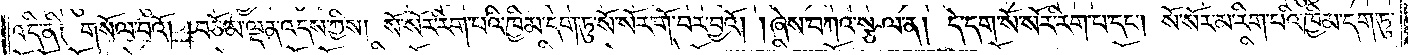འདི་ནི༑ གསོལ་བའོ། །བཅོམ་ལྡན་འདས་ཀྱིས། སོ་སོར་རིག་པའི་ཁྱིམ་དག་ཏུ་སོ་སོར་གོ་བར་བྱའོ། །ཞེས་བཀའ་སྩལ་ན། དེ་དག་སོ་སོར་རིག་པ་དང༌། སོ་སོར་མ་རིག་པའི་ཁྱིམ་དག་ཏུ་
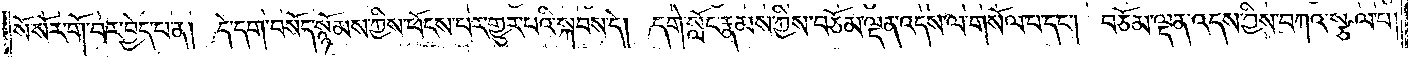སོ་སོར་གོ་བར་བྱེད་པ་ན། དེ་དག་བསོད་སྙོམས་ཀྱིས་ཕོངས་པར་གྱུར་པའི་སྐབས་དེ། དགེ་སློང་རྣམས་ཀྱིས་བཅོམ་ལྡན་འདས་ལ་གསོལ་བ་དང༌། བཅོམ་ལྡན་འདས་ཀྱིས་བཀའ་སྩལ་པ།
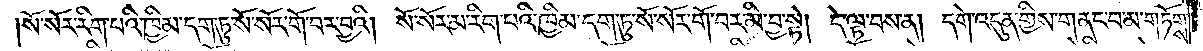སོ་སོར་རིག་པའི་ཁྱིམ་དག་ཏུ་སོ་སོར་གོ་བར་བྱའི། སོ་སོར་མ་རིག་པའི་ཁྱིམ་དག་ཏུ་སོ་སོར་གོ་བར་མི་བྱ་སྟེ། དེ་ལྟ་བས་ན། དགེ་འདུན་གྱིས་གནང་བ་མ་གཏོགས་
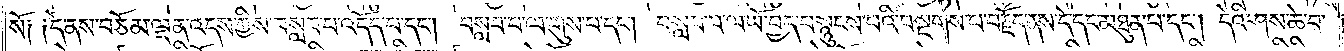སོ༑ ༑དེ་ནས་བཅོམ་ལྡན་འདས་ཀྱིས་བསླབ་པ་འདོད་པ་དང༌། བསླབ་པ་ལ་གུས་པ་དང༌། བསླབ་པ་ལ་ཡོ་བྱད་བསྙུངས་པའི་བསྔགས་པ་བརྗོད་ནས་དེ་དང་མཐུན་པ་དང༌། དེའི་ཤས་ཆེ་བ་
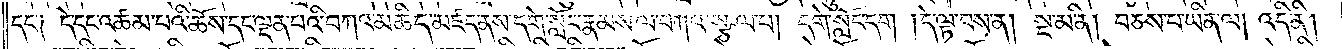དང་༑ དེ་དང་འཚམ་པའི་ཆོས་དང་ལྡན་པའི་བཀའ་མཆིད་མཛད་ནས་དགེ་སློང་རྣམས་ལ་བཀའ་སྩལ་པ། དགེ་སློང་དག །དེ་ལྟ་བས་ན། སྔ་མ་ནི། བཅས་པ་ཡིན་ལ། འདི་ནི།
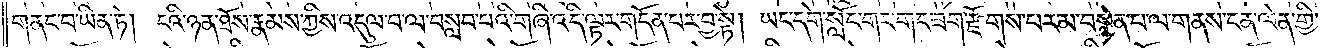གནང་བ་ཡིན་ཏེ། ངའི་ཉན་ཐོས་རྣམས་ཀྱིས་འདུལ་བ་ལ་བསླབ་པའི་གཞི་འདི་ལྟར་གདོན་པར་བྱ་སྟེ། ཡང་དགེ་སློང་གང་གང་ཟག་རྫོགས་པར་མ་བསྙེན་པ་ལ་གནས་ངན་ལེན་གྱི་
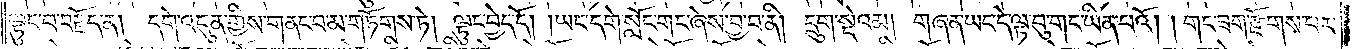ལྟུང་བ་བརྗོད་ན། དགེ་འདུན་གྱིས་གནང་བ་མ་གཏོགས་ཏེ། ལྟུང་བྱེད་དོ། །ཡང་དགེ་སློང་གང་ཞེས་བྱ་བ་ནི། དྲུག་སྡེའམ། གཞན་ཡང་དེ་ལྟ་བུ་གང་ཡིན་པའོ། །གང་ཟག་རྫོགས་པར་
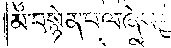མ་བསྙེན་པ་ལ་ཞེས་བྱ་
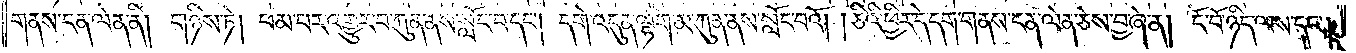གནས་ངན་ལེན་ནི། གཉིས་ཏེ། ཕམ་པར་འགྱུར་བ་ཀུན་ནས་སློང་བ་དང༌། དགེ་འདུན་ལྷག་མ་ཀུན་ནས་སློང་བའོ། །ཅིའི་ཕྱིར་དེ་དག་གནས་ངན་ལེན་ཅེས་བྱ་ཞེ་ན། ངོ་བོ་ཉིད་ལས་དང༌།
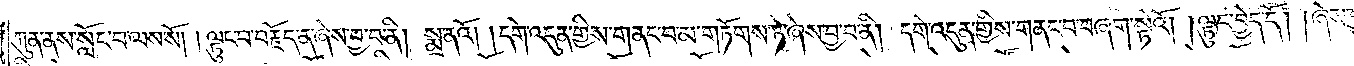ཀུན་ནས་སློང་བ་ལས་སོ། །ལྟུང་བ་བརྗོད་ན་ཞེས་བྱ་བ་ནི། སྨྲ་ནའོ། །དགེ་འདུན་གྱིས་གནང་བ་མ་གཏོགས་ཏེ་ཞེས་བྱ་བ་ནི། དགེ་འདུན་གྱིས་གནང་བ་བཞག་སྟེའོ། །ལྟུང་བྱེད་དོ། །ཞེས་བྱ་བ་
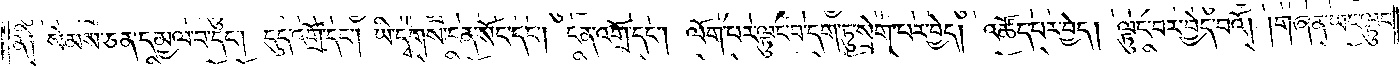ནི༑ སེམས་ཅན་དམྱལ་བ་དང༌། དུད་འགྲོ་དང༌། ཡི་དྭགས་ངན་སོང་དང༌། ངན་འགྲོ་དང༌། ལོག་པར་ལྟུང་བ་དག་ཏུ་སྲེག་པར་བྱེད། འཚོད་པར་བྱེད། ལྟུང་བར་བྱེད་པའོ། །གཞན་ཡང་ལྟུང་
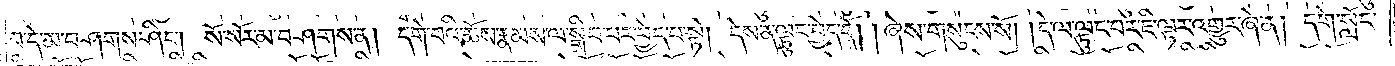བ་དེ་མ་བཤགས་ཤིང༌། སོ་སོར་མ་བཤགས་ན། དགེ་བའི་ཆོས་རྣམས་ལ་སྒྲིབ་པར་བྱེད་པ་སྟེ། དེས་ན་ལྟུང་བྱེད་དོ། །ཞེས་གསུངས་སོ། །དེ་ལ་ལྟུང་བར་ཇི་ལྟར་འགྱུར་ཞེ་ན། དགེ་སློང་
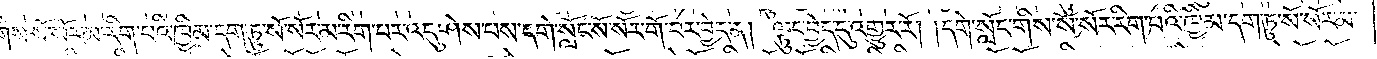གིས་སོ་སོར་མ་རིག་པའི་ཁྱིམ་དག་ཏུ་སོ་སོར་མ་རིག་པར་འདུ་ཤེས་པས་དགེ་སློང་སོ་སོར་གོ་བར་བྱེད་ན། ལྟུང་བྱེད་དུ་འགྱུར་རོ། །དགེ་སློང་གིས་སོ་སོར་རིག་པའི་ཁྱིམ་དག་ཏུ་སོ་སོར་མ་
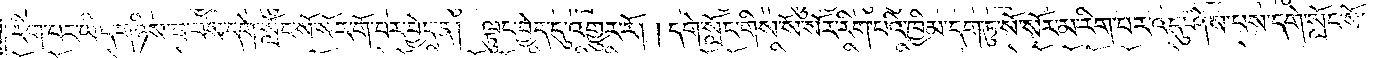རིག་པར་ཡིད་གཉིས་ཟ་བས་དགེ་སློང་སོ་སོར་གོ་བར་བྱེད་ན། ལྟུང་བྱེད་དུ་འགྱུར་རོ། །དགེ་སློང་གིས་སོ་སོར་རིག་པའི་ཁྱིམ་དག་ཏུ་སོ་སོར་མ་རིག་པར་འདུ་ཤེས་པས་དགེ་སློང་སོ་
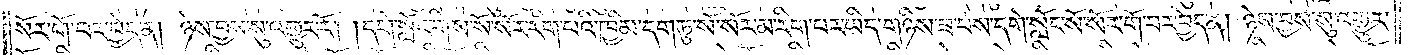སོར་གོ་བར་བྱེད་ན། ཉེས་བྱས་སུ་འགྱུར་རོ། །དགེ་སློང་གིས་སོ་སོར་རིག་པའི་ཁྱིམ་དག་ཏུ་སོ་སོར་མ་རིག་པར་ཡིད་གཉིས་ཟ་བས་དགེ་སློང་སོ་སོར་གོ་བར་བྱེད་ན། ཉེས་བྱས་སུ་འགྱུར་
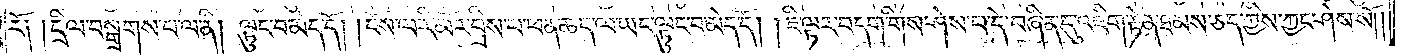རོ༑ །དྲིལ་བསྒྲགས་པ་ལ་ནི། ལྟུང་བ་མེད་དོ། །ངོས་ལ་རི་མོར་བྲིས་པ་ཕན་ཆད་ལ་ཡང་ལྟུང་བ་མེད་དོ། །ཇི་ལྟར་བདག་གིས་ཤེས་པ་དེ་བཞིན་དུ་འཇིག་རྟེན་ཐམས་ཅད་ཀྱིས་ཀྱང་ཤེས་སོ༎
